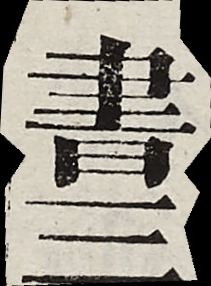書三
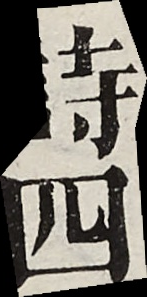詩四
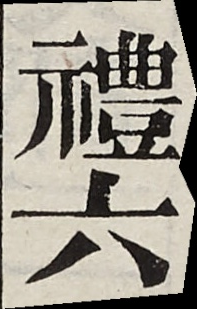禮六
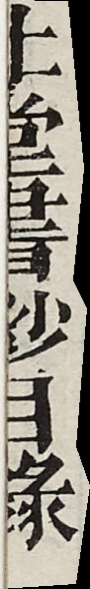北堂書鈔目錄
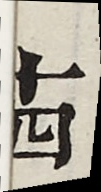十四
